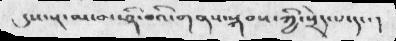དུས་སྔ་མ་མ་ཤི་བའི་གནས་སྐབས་ཀྱི་སྲེད་པ་དང་།
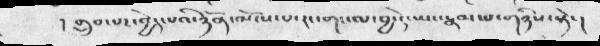། གྲུབ་པར་བྱེད་པའི་ཉོན་མོངས་པ་རང་གང་ལ་བྱ་དེ་ཡང་རྣམ་པ་གཉིས་སྟེ་།
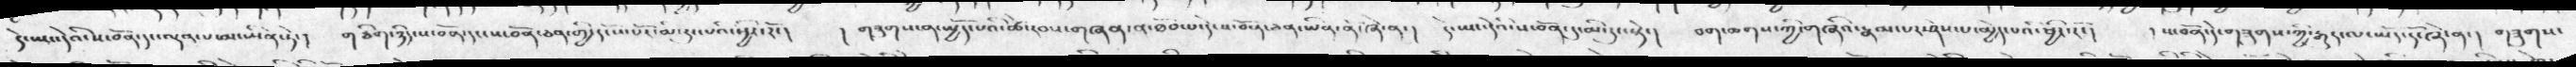དེ་ཡང་དེའི་ས་བོན་དང་ལྡན་པ་མ་ཡིན་ཏེ་།  གཅིག་ཉིད་ས་བོན་དང་ས་བོན་ཅན་གྱི་དངོས་པོར་མ་རུང་པའི་ཕྱིར་རོ་།  ། གཟུགས་ན་སྤྱོད་པའི་ཚེ་རབས་གཞན་ན་ཐོབ་པ་དེ་ས་བོན་ཅན་ཡིན་ནོ་ཞེ་ན་།  དེ་ཡང་དེའི་ས་བོན་དུ་མི་རུང་སྟེ་།  བག་ཆགས་ཀྱི་གཞིའ་རྣམ་པར་ཤེས་པ་མྱེད་པའི་ཕྱིར་རོ་།  ། ས་བོན་དེ་གཟུགས་ཀྱི་རྒྱུད་ལ་ཡོད་དོ་ཞེ་ན་།   གཟུགས་
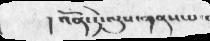།འོན་ཏེ་ལུས་གནས་པ་
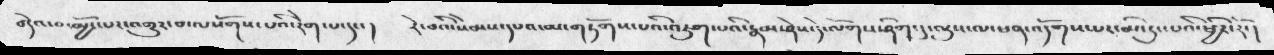བདེའ་བ་མྱོང་པར་འགྱུར་བ་ལསོགས་པའི་རེག་པ་དང་།   རེ་བའི་སེམས་དཔའ་མ་གཏོགས་པའི་འཇུག་པའི་རྣམ་ཤེས་དེ་ལོགས་ཤིག་དུ་ལུས་ལ་ཕན་འདོགས་པར་མི་རུང་པའི་ཕྱིར་རོ་།
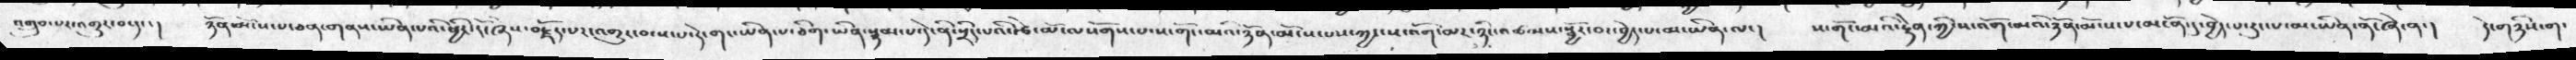འགྲུབ་པར་འགྱུར་བ་དང་།   ཉོན་མོངས་པ་ཅན་གནས་ཡིན་པའི་ཕྱིར་རོ་ཞེས་བརྗོད་པར་འགྱུར་བ་ས་པ་དེ་གང་ཡིན་པ་ཅིག་ཡིན་སྙམ་པ་དེ་ནི་སྲིད་པའི་རྩེ་མོ་ལསོགས་པ་ས་གོང་མའི་ཉོན་མོངས་པས་ཀྱང་ས་འོག་མར་ཉིང་འཚམས་སྦྱོར་བར་བྱེད་པ་མ་ཡིན་ལ་།  ས་གོང་མའི་རྟེན་ཀྱི་ས་འོག་མའི་ཉོན་མོངས་པ་མངོན་དུ་བྱེད་པ་རུང་པ་མ་ཡིན་ནོ་ཞེ་ན་།  དེ་གཉིས་ག་
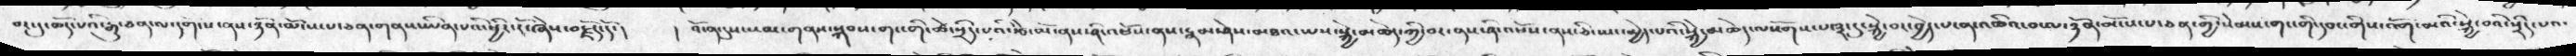བར་དུ་ཆོད་པའི་རྒྱུ་ཅན་ལ་དག་པ་ནས་ཉོན་མོངས་པ་ཅན་གནས་ཡིན་པའི་ཕྱིར་རོ་ཞེས་བརྗོད་དོ་།  ། འོ་ན་དུས་སམ་གནས་སྐབས་གང་གི་ཚེ་སྲིད་པའི་རྩེ་མོ་ནས་རྣམ་ཤེས་མཐའ་ཡས་སྐྱེ་མཆེད་ཀྱི་བར་ནས་ཤི་འཕོས་ནས་ཅི་ཡང་མྱེད་པའི་སྐྱེ་མཆེད་ལསོགས་པ་༣་དུ་སྐྱེ་བར་བྱེད་པ་ན་འཆིའ་བ་ལ་ཉོན་མོངས་པ་ཅན་གྱི་སེམས་གང་གི་དབང་གིས་འོག་མའི་སྐྱེ་བའི་སྲིད་པའ་
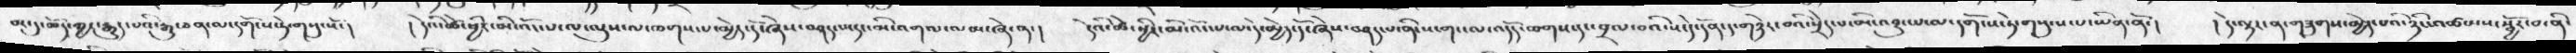བར་དུ་ཆོད་ཀྱང་རྒུད་པའི་རྒྱུ་ཅན་ལ་དགོངས་ཏེ་གསུངསོ་།  །དེའི་ཚེ་ཕྱིར་མི་འོངས་པ་ལ་ལུས་ལ་ཆགས་པ་མྱེད་དོ་ཞེས་བཤད་པ་དང་མི་འགལ་ལམ་ཞེ་ན་།  དེའི་ཚེ་ཕྱིར་མི་འོང་པ་ལ་དེ་མྱེད་དོ་ཞེས་བཤད་པ་ནི་ས་གང་ལ་འདོད་ཆགས་དང་བྲལ་བའི་ས་དེ་དོན་དང་གཉེར་བའི་སྲེད་པ་མི་འབྱུང་པ་ལ་དགོངས་ཏེ་གཟུངས་པ་ཡིན་ནོ་།  །དེ་ལྟར་ན་གཟུགས་མྱེད་པའི་ཉིང་འཚམས་སྦྱོར་བ་ནི་
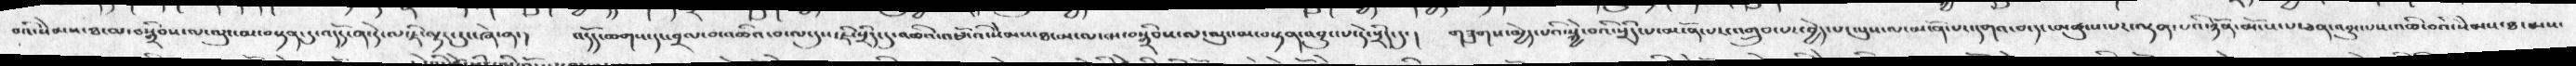བའི་སེམས་ཐ་མ་བསྒྲིབས་ལ་ལུང་མ་བསྟན་དུ་འདོད་ན་དེ་ལ་ཇི་ལྟར་རུང་ཞེ་ན་།   འདོད་ཆགས་དང་བྲལ་བ་འཆིའ་བ་ལ་དུས་ཇི་སྲིད་དུ་འཆིའ་འཕོ་འི་སེམས་ཐ་མ་ལ་མ་བསྒྲིབས་ལ་ལུང་མ་བསྟན་འབྱུང་པ་དེ་སྲིད་དུ་།  གཟུགས་མྱེད་པའི་སྐྱེ་བའི་སྲིད་པ་མངོན་པར་འགྲུབ་པར་བྱེད་པ་ལུས་ལ་མངོན་པར་དགའ་བ་དང་མཚུངས་པར་ལྡན་པའི་ཉོན་མོངས་པ་ཅན་འབྱུང་པས་འཆི་བའི་སེམས་ཐ་མས་
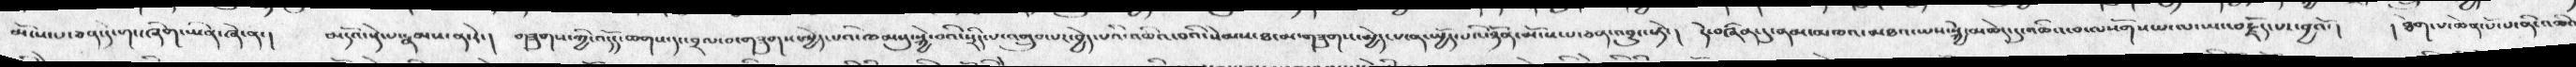མོངས་པ་ཅན་དེ་གང་ཞིག་ཡིན་ཞེ་ན་།  མདའོ་སྡེ་པ་རྣམས་ན་རེ་།  གཟུགས་ཀྱི་འདོད་ཆགས་དང་བྲལ་བ་གཟུགས་མྱེད་པའི་ཁམསསུ་སྐྱེ་བའི་སྲིད་པ་འགྲུབ་པར་བྱེད་པའི་འཆིའ་བའི་སེམས་ཐ་མ་གཟུགས་མྱེད་པ་ན་སྤྱོད་པའི་ཉོན་མོངས་པ་ཅན་འབྱུང་སྟེ་།  དེ་བཞིན་དུ་ནམ་མཁའ་མཐའ་ཡས་སྐྱེ་མཆེད་དུ་འཆིའ་བ་ལསོགས་པ་ལ་ཡང་བརྗོད་པར་བྱའོ་།   ། ཐེག་པ་ཆེན་པ་ནི་འཆི་
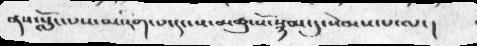ནས་སློང་པས་མ་རིག་པདང་ས་མཆུ་སོ་སྙམ་དུ་སེམས་པ་ལ་།
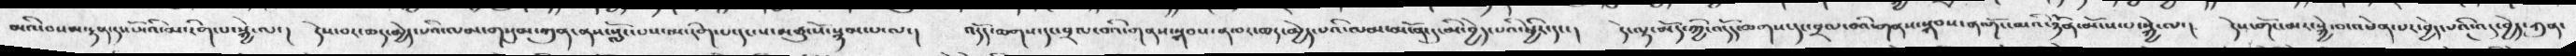མའི་བསམ་རྟན་དང་པོ་འི་མ་རིག་པ་སྐྱེ་ལ་།  དེས་བར་ཆད་མྱེད་པའི་ལམ་གསུམ་ཀུན་ནས་སློང་པས་ལ་རིག་པ་དང་ས་མཆུ་སོ་སྙམ་པ་ལ་།   འདོད་ཆགས་དང་བྲལ་བའི་གནས་སྐབས་ན་བར་ཆད་མྱེད་པའི་ལམ་མངོན་དུ་མི་བྱེད་པའི་ཕྱིར་དང་།  དེ་ལྟ་མདོ་ཀྱི་འདོད་ཆགས་དང་བྲལ་བའི་གནས་སྐབས་ནལོཌ་མའི་ཉོན་མོངས་པ་སྐྱེ་ལ་།  དེས་གོང་མར་སྐྱེ་བ་འཕེན་པར་བྱེད་པའི་འདུ་བྱེད་ཀུན་
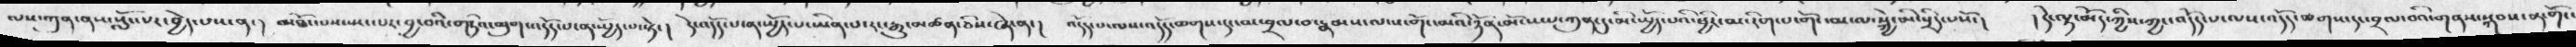ལས་ཀུན་ནས་སློང་པར་བྱེད་པས་ན་།   མཐོང་པས་སྤང་པར་བྱ་བའི་གཏིའ་མུག་འདོད་པ་ན་ཡྱོད་པ་སྟེ་།   དེ་འདོད་པ་ན་ཡྱོད་པ་ཡིན་པ་རང་རྒྱུ་མཚན་ཅིས་ཞེ་ན་།   འདོད་པ་ལས་འདོད་ཆགས་དང་མ་བྲལ་བ་རྣམས་ལ་ས་གོང་མའི་ཉོན་མོངས་པ་ཀུན་དུ་མི་ཡྱོད་པའི་ཕྱིར་མ་རིག་པ་གོང་མ་ལ་སྐྱེ་མི་སྲིད་པསོ་།  ། དེ་ལྟ་མོད་ཀྱིས་ཀྱང་འདོད་པ་ལས་འདོད་ཆགས་དང་བྲལ་བའི་གནས་སྐབས་ན་གོང་
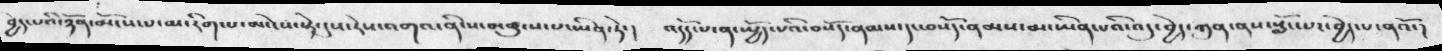བྱེད་པའི་ཉོན་མོངས་པ་མ་རིག་པ་མ་ངེས་སྟེ་དུས་རེས་འགའ་ནི་ས་མཚུངས་པ་ཡིན་ཏེ་།  འདོད་པ་ན་ཡྱོད་པའི་བསོད་ནམས་དང་བསོད་ནམས་མ་ཡིན་པའི་འདུ་བྱེད་ཀུན་ནས་སློང་པར་བྱེད་པ་ནའོ་།
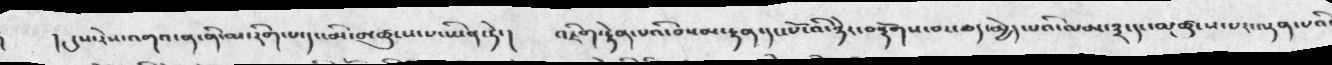།  །དུས་རེས་འགའ་ན་ནི་མ་རིག་པ་དང་མི་མཚུངས་པ་ཡིན་ཏེ་།  འཇིག་རྟེན་པའི་བསམ་རྟན་དང་པོ་འི་ཉེར་བསྡོགས་བར་ཆད་མྱེད་པའི་ལམ་༣་དང་མཚུངས་པར་ལྡན་པའི་
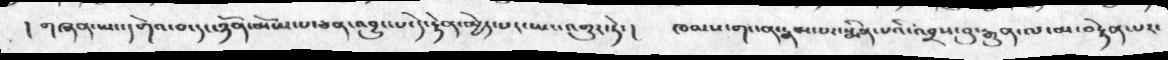། གཞན་ཡང་དགེའ་བ་དང་ཉོན་མོངས་པ་ཅན་འབྱུང་པ་དེ་རྟེན་མྱེད་པར་ཡང་འགྱུར་ཏེ་།  ཁམས་གང་ན་རྣམ་པར་སྨིན་པའི་འབྲས་བུ་རྒྱུན་ལ་མ་བརྟེན་པར་
